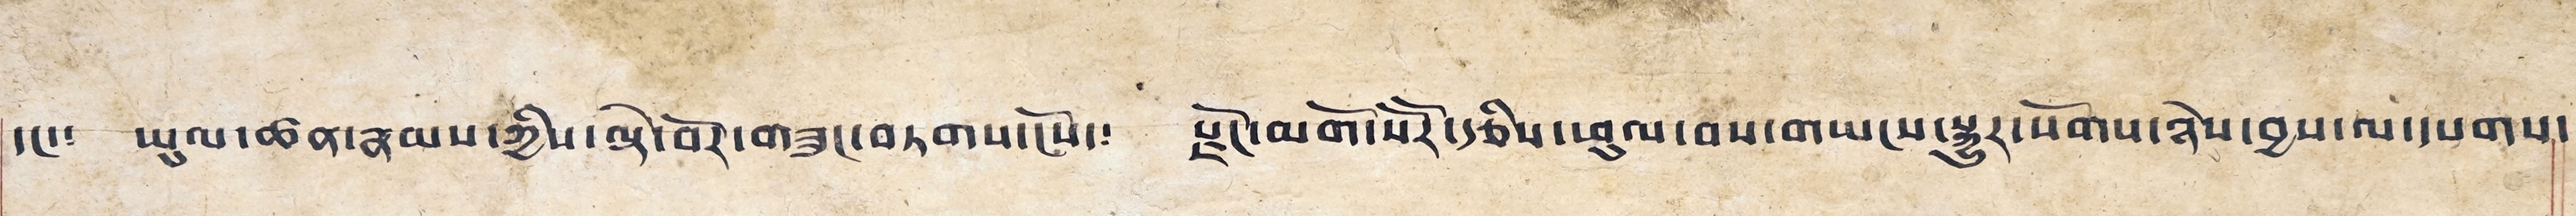དང༴ ཡུལ་ཚན་རྣམས་ཀྱིས་ལྡེ་བོར་གཟུང་བཏགས་ངོས་༴ རྫོང་མགོ་སོ་སོར་རྩིས་ཕུལ་བས་གཡངས་སྐྱུར་སོགས་ཉེས་བྱས་ལ་དཔགས་
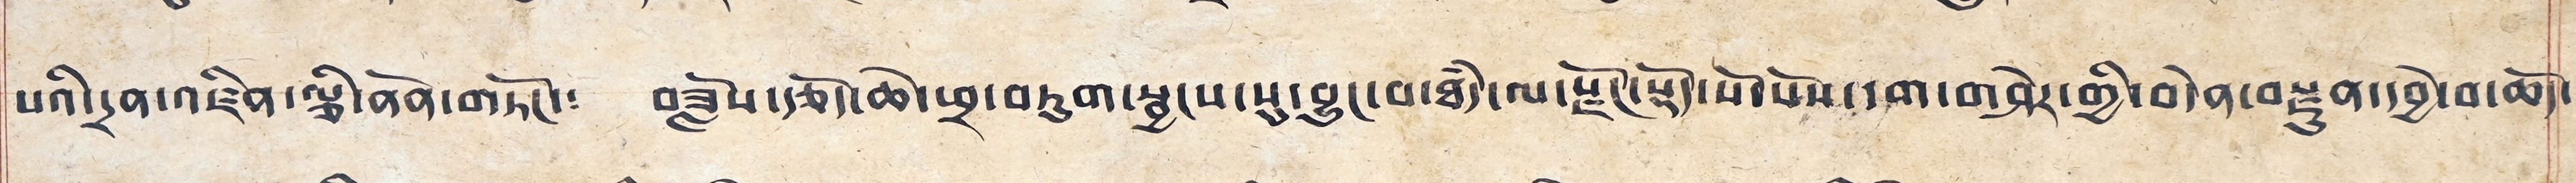པའི་དྲན་འཛིན་ལྕི་ནོན་གཏོང་༴ བཟློས་རྩོད་ཆེ་ཕྲ་བཏུག་སྦྱངས་སུ་བྱུང་བ་ཐཾད་ལ་རྫོང་སྡོད་སོ་སོས་དག་གཤེར་གྱི་བདེན་བརྫུན་བྱེ་བ་ཆོད་
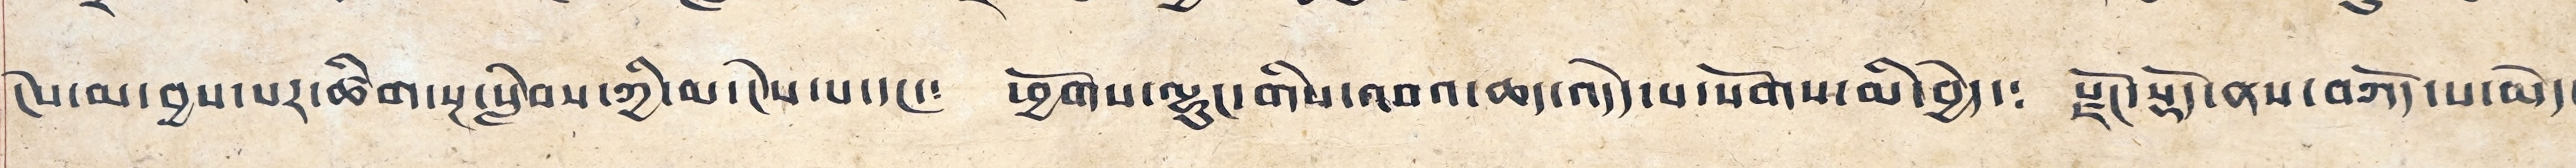ངེས་མ་བྱས་པར་ཚིག་སྔ་སླེབས་ཀྱི་མ་ངེས་པ་དང་༴ ཕྱོགས་ལྷུང་གིས་འབའ་ཆད་འདེད་པ་སོགས་མི་བྱེད་༴ རྫོང་སྡོད་ནས་བཀོད་པ་མེད་
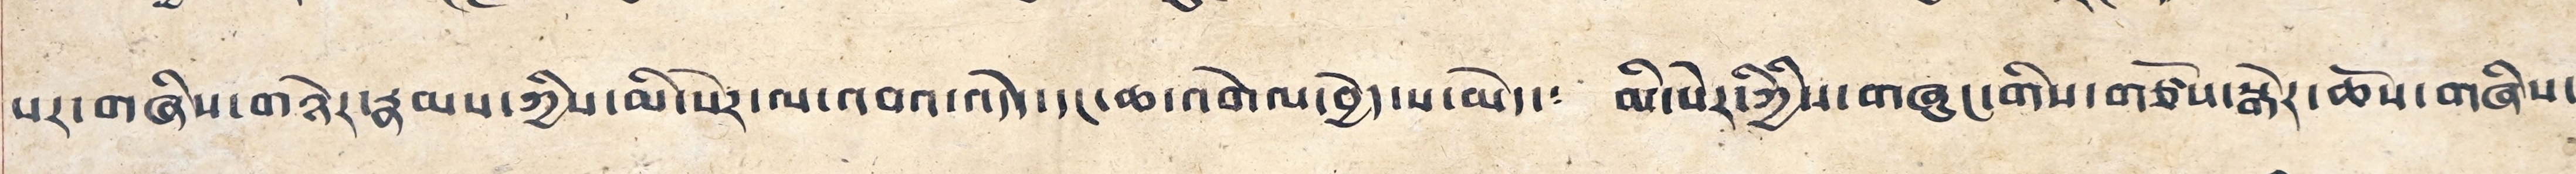པར་གཞིས་གཉེར་རྣམས་ཀྱིས་མི་སེར་ལ་འབའ་འདེད་དང་ཆ་འགེལ་བྱེད་པ་མེད་༴ མི་སེར་ཀྱིསི་གཞུང་གིས་གཙོས་སྒེར་ཆོས་གཞིས་
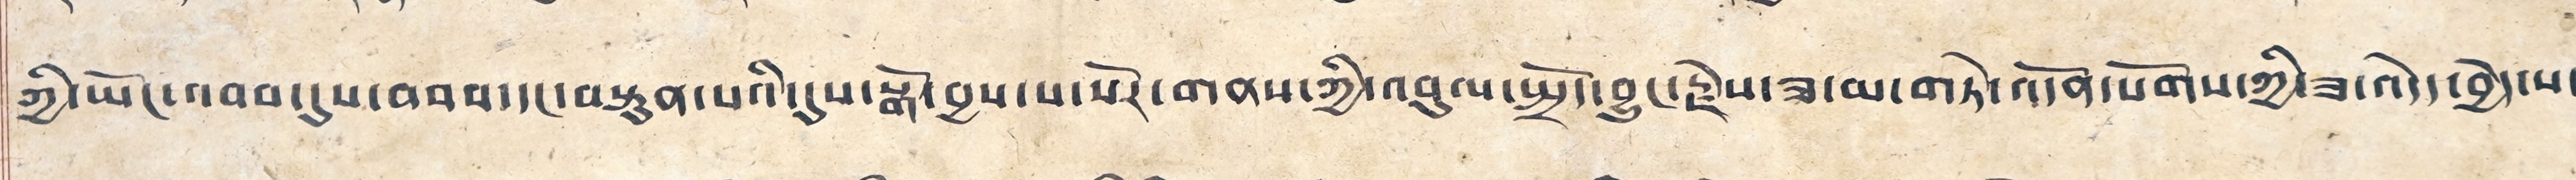ཀྱི་ཡོང་འབབ་དུས་འབབ་དང་བསྟུན་པའི་དུས་སྒོ་བྱས་པ་སེར་གནས་ཀྱི་འབུལ་སྤྲོད་བྱུང་རྗེས་ཟ་མ་གཏེ་འདོན་སོགས་ཀྱི་ཟ་འདེད་བྱེད་པ་
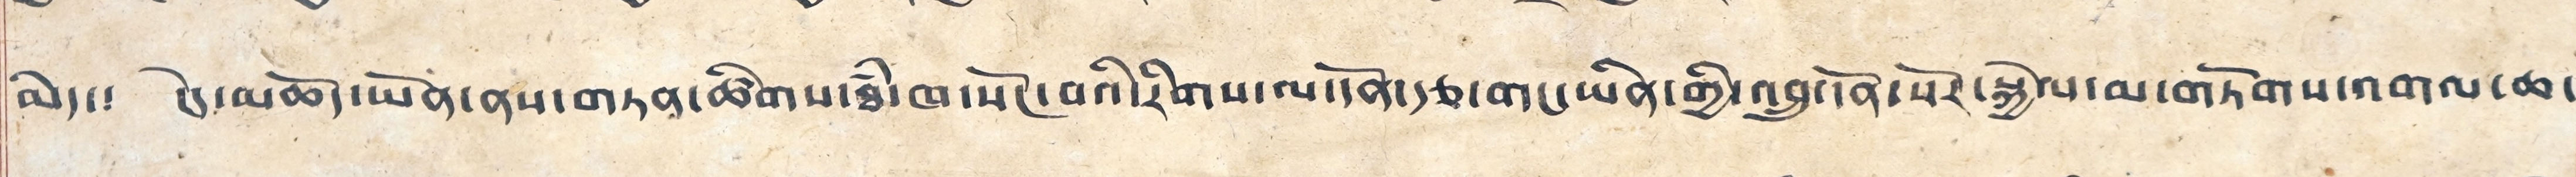མེད་༴ དེ་མཆོད་ཡོན་ནས་གཏན་ཚིགས་ཐཾ་ཁ་སོང་བའི་རིགས་ལ་དོན་རྩ་གང་ཡིན་གྱི་འབྲུ་དོན་པོར་སྐྱེལ་མ་གཏོགས་འགལ་ཆ་
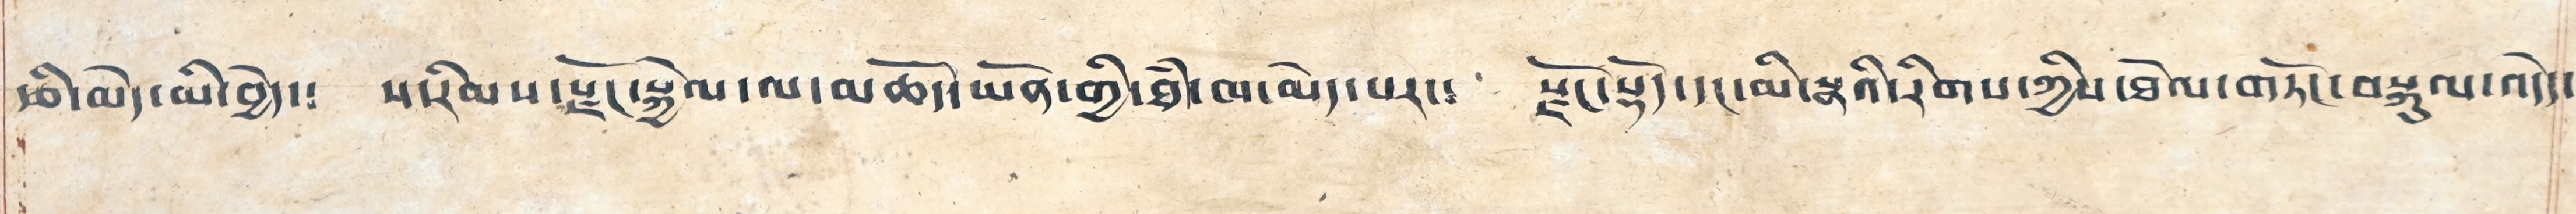རྩི་མེད་མི་བྱེད་༴ ས་རིམས་རྫོང་སྐྱེལ་ལ་མཆོད་ཡོན་གྱི་ཐཾ་ཁ་མེད་པར་༴ རྫོང་སྟོད་དང་མི་སྣའི་རིགས་ཀྱིས་ཐེལ་གཏོང་བསྐུལ་འདེད་
